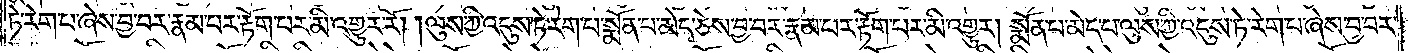ཏེ་རེག་པ་ཞེས་བྱ་བར་རྣམ་པར་རྟོག་པར་མི་འགྱུར་རོ། །ལུས་ཀྱི་འདུས་ཏེ་རེག་པ་སྨོན་པ་མེད་ཅེས་བྱ་བར་རྣམ་པར་རྟོག་པར་མི་འགྱུར། སྨོན་པ་མེད་པ་ལུས་ཀྱི་འདུས་ཏེ་རེག་པ་ཞེས་བྱ་བར་
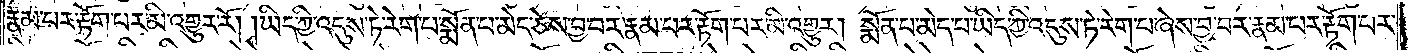རྣམ་པར་རྟོག་པར་མི་འགྱུར་རོ། །ཡིད་ཀྱི་འདུས་ཏེ་རེག་པ་སྨོན་པ་མེད་ཅེས་བྱ་བར་རྣམ་པར་རྟོག་པར་མི་འགྱུར། སྨོན་པ་མེད་པ་ཡིད་ཀྱི་འདུས་ཏེ་རེག་པ་ཞེས་བྱ་བར་རྣམ་པར་རྟོག་པར་
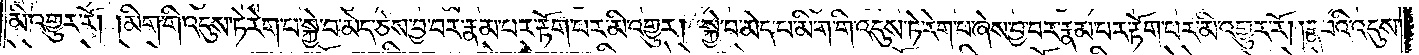མི་འགྱུར་རོ། །མིག་གི་འདུས་ཏེ་རེག་པ་སྐྱེ་བ་མེད་ཅེས་བྱ་བར་རྣམ་པར་རྟོག་པར་མི་འགྱུར། སྐྱེ་བ་མེད་པ་མིག་གི་འདུས་ཏེ་རེག་པ་ཞེས་བྱ་བར་རྣམ་པར་རྟོག་པར་མི་འགྱུར་རོ། །རྣ་བའི་འདུས་
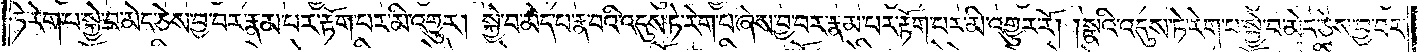ཏེ་རེག་པ་སྐྱེ་བ་མེད་ཅེས་བྱ་བར་རྣམ་པར་རྟོག་པར་མི་འགྱུར། སྐྱེ་བ་མེད་པ་རྣ་བའི་འདུས་ཏེ་རེག་པ་ཞེས་བྱ་བར་རྣམ་པར་རྟོག་པར་མི་འགྱུར་རོ། །སྣའི་འདུས་ཏེ་རེག་པ་སྐྱེ་བ་མེད་ཅེས་བྱ་བར་
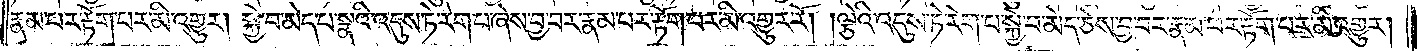རྣམ་པར་རྟོག་པར་མི་འགྱུར། སྐྱེ་བ་མེད་པ་སྣའི་འདུས་ཏེ་རེག་པ་ཞེས་བྱ་བར་རྣམ་པར་རྟོག་པར་མི་འགྱུར་རོ། །ལྕེའི་འདུས་ཏེ་རེག་པ་སྐྱེ་བ་མེད་ཅེས་བྱ་བར་རྣམ་པར་རྟོག་པར་མི་འགྱུར།
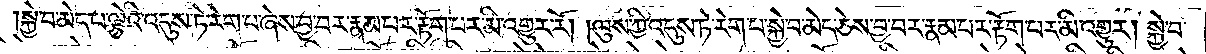སྐྱེ་བ་མེད་པ་ལྕེའི་འདུས་ཏེ་རེག་པ་ཞེས་བྱ་བར་རྣམ་པར་རྟོག་པར་མི་འགྱུར་རོ། །ལུས་ཀྱི་འདུས་ཏེ་རེག་པ་སྐྱེ་བ་མེད་ཅེས་བྱ་བར་རྣམ་པར་རྟོག་པར་མི་འགྱུར། སྐྱེ་བ་
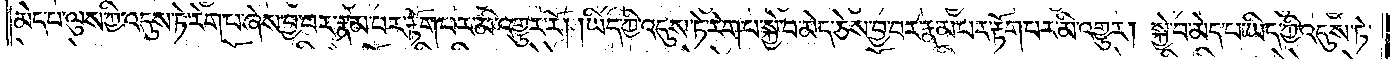མེད་པ་ལུས་ཀྱི་འདུས་ཏེ་རེག་པ་ཞེས་བྱ་བར་རྣམ་པར་རྟོག་པར་མི་འགྱུར་རོ། །ཡིད་ཀྱི་འདུས་ཏེ་རེག་པ་སྐྱེ་བ་མེད་ཅེས་བྱ་བར་རྣམ་པར་རྟོག་པར་མི་འགྱུར། སྐྱེ་བ་མེད་པ་ཡིད་ཀྱི་འདུས་ཏེ་
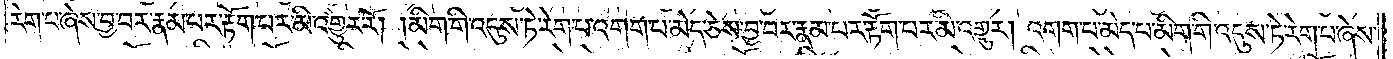རེག་པ་ཞེས་བྱ་བར་རྣམ་པར་རྟོག་པར་མི་འགྱུར་རོ། །མིག་གི་འདུས་ཏེ་རེག་པ་འགག་པ་མེད་ཅེས་བྱ་བར་རྣམ་པར་རྟོག་པར་མི་འགྱུར། འགག་པ་མེད་པ་མིག་གི་འདུས་ཏེ་རེག་པ་ཞེས་
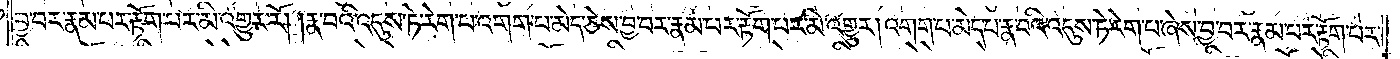བྱ་བར་རྣམ་པར་རྟོག་པར་མི་འགྱུར་རོ། །རྣ་བའི་འདུས་ཏེ་རེག་པ་འགག་པ་མེད་ཅེས་བྱ་བར་རྣམ་པར་རྟོག་པར་མི་འགྱུར། འགག་པ་མེད་པ་རྣ་བའི་འདུས་ཏེ་རེག་པ་ཞེས་བྱ་བར་རྣམ་པར་རྟོག་པར་
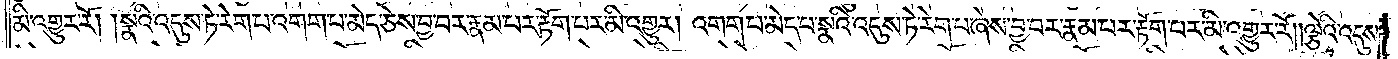མི་འགྱུར་རོ། །སྣའི་འདུས་ཏེ་རེག་པ་འགག་པ་མེད་ཅེས་བྱ་བར་རྣམ་པར་རྟོག་པར་མི་འགྱུར། འགག་པ་མེད་པ་སྣའི་འདུས་ཏེ་རེག་པ་ཞེས་བྱ་བར་རྣམ་པར་རྟོག་པར་མི་འགྱུར་རོ། །ལྕེའི་འདུས་
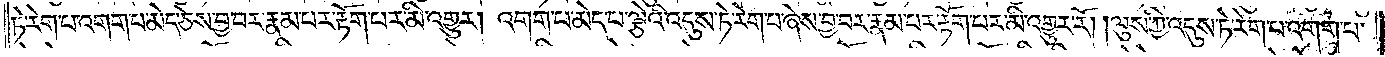ཏེ་རེག་པ་འགག་པ་མེད་ཅེས་བྱ་བར་རྣམ་པར་རྟོག་པར་མི་འགྱུར། འགག་པ་མེད་པ་ལྕེའི་འདུས་ཏེ་རེག་པ་ཞེས་བྱ་བར་རྣམ་པར་རྟོག་པར་མི་འགྱུར་རོ། །ལུས་ཀྱི་འདུས་ཏེ་རེག་པ་འགག་པ་
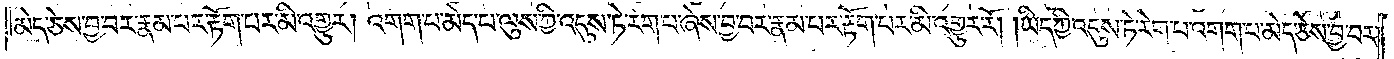མེད་ཅེས་བྱ་བར་རྣམ་པར་རྟོག་པར་མི་འགྱུར། འགག་པ་མེད་པ་ལུས་ཀྱི་འདུས་ཏེ་རེག་པ་ཞེས་བྱ་བར་རྣམ་པར་རྟོག་པར་མི་འགྱུར་རོ། །ཡིད་ཀྱི་འདུས་ཏེ་རེག་པ་འགག་པ་མེད་ཅེས་བྱ་བར་
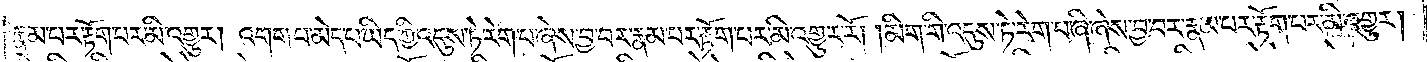རྣམ་པར་རྟོག་པར་མི་འགྱུར། འགག་པ་མེད་པ་ཡིད་ཀྱི་འདུས་ཏེ་རེག་པ་ཞེས་བྱ་བར་རྣམ་པར་རྟོག་པར་མི་འགྱུར་རོ། །མིག་གི་འདུས་ཏེ་རེག་པ་ཞི་ཞེས་བྱ་བར་རྣམ་པར་རྟོག་པར་མི་འགྱུར།
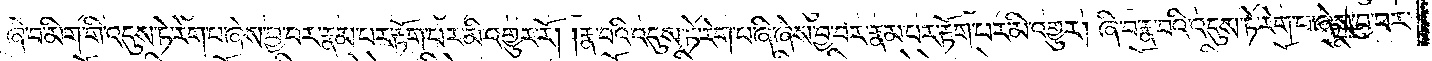ཞི་བ་མིག་གི་འདུས་ཏེ་རེག་པ་ཞེས་བྱ་བར་རྣམ་པར་རྟོག་པར་མི་འགྱུར་རོ། །རྣ་བའི་འདུས་ཏེ་རེག་པ་ཞི་ཞེས་བྱ་བར་རྣམ་པར་རྟོག་པར་མི་འགྱུར། ཞི་བ་རྣ་བའི་འདུས་ཏེ་རེག་པ་ཞེས་བྱ་བར་
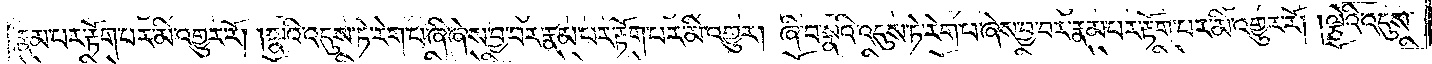རྣམ་པར་རྟོག་པར་མི་འགྱུར་རོ། །སྣའི་འདུས་ཏེ་རེག་པ་ཞི་ཞེས་བྱ་བར་རྣམ་པར་རྟོག་པར་མི་འགྱུར། ཞི་བ་སྣའི་འདུས་ཏེ་རེག་པ་ཞེས་བྱ་བར་རྣམ་པར་རྟོག་པར་མི་འགྱུར་རོ། །ལྕེའི་འདུས་
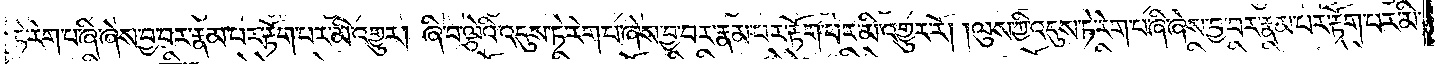ཏེ་རེག་པ་ཞི་ཞེས་བྱ་བར་རྣམ་པར་རྟོག་པར་མི་འགྱུར། ཞི་བ་ལྕེའི་འདུས་ཏེ་རེག་པ་ཞེས་བྱ་བར་རྣམ་པར་རྟོག་པར་མི་འགྱུར་རོ། །ལུས་ཀྱི་འདུས་ཏེ་རེག་པ་ཞི་ཞེས་བྱ་བར་རྣམ་པར་རྟོག་པར་མི་
